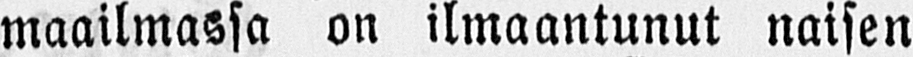maailmassa on ilmaantunut naisen
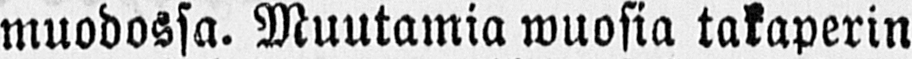muodossa. Muutamia wuosia takaperin
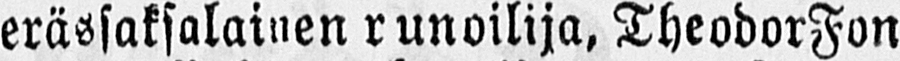erässaksalainen runoilija, Theodor Fon
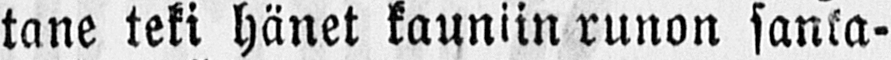tane teki hänet kauniin runon sanka-
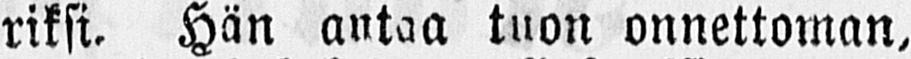riksi. Hän antaa tuon onnettoman,
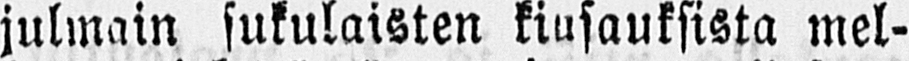julmain sukulaisten kiusauksista mel-
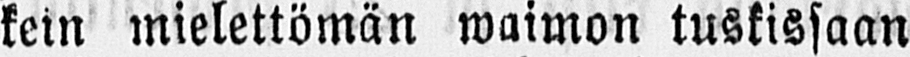kein mielettömän waimon tuskissaan
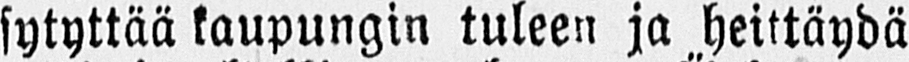sytyttää kaupungin tuleen ja heittäydä
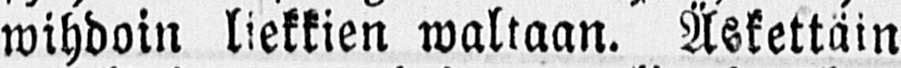wihdoin liekkien waltaan. Äskettäin
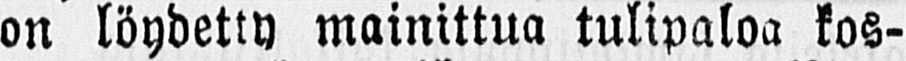on löydetty mainittua tulipaloa kos-
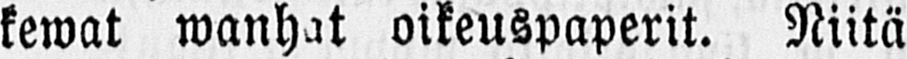kewat wanhat oikeuspaperit. Niitä
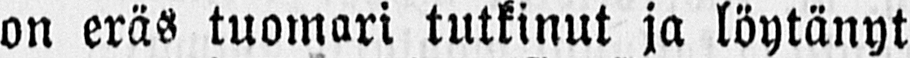on eräs tuomari tutkinut ja löytänyt
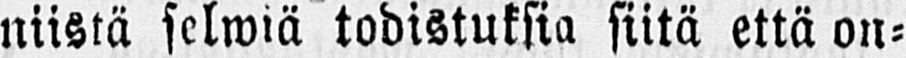niistä selwiä todistuksia siitä että on-
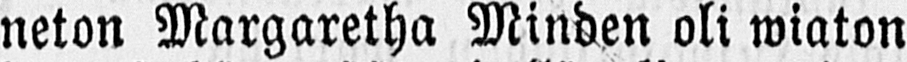neton Margaretha Minden oli wiaton
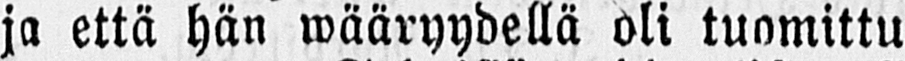ja että hän wääryydellä oli tuomittu
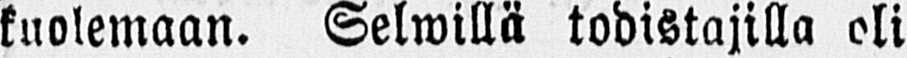kuolemaan. Selwillä todistajilla oli
